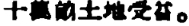十萬畝土地受益。
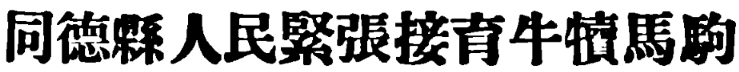同德縣人民緊張接育牛犢馬駒
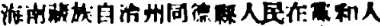海南藏族自治州同德縣人民在黨和人
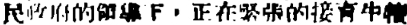民政府的領導下，正在緊張的接育牛犢
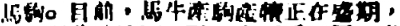馬駒。目前，馬牛產駒產犢正在盛期，
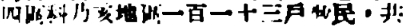四區科乃亥地區一百一十三戶牧民，共
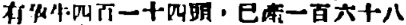有孕牛四百一十四頭，已產一百六十八
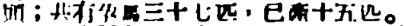頭；共有孕馬三十七匹，已產十五匹。
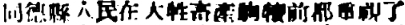同德縣人民在大牲畜產駒犢前都重視了
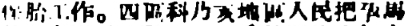保胎工作。四區科乃亥地區人民把孕馬
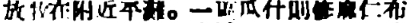放牧在附近平灘。一區瓜什則修麻仁布
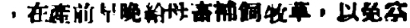，在產前早晚給母畜補饲牧草，以免空
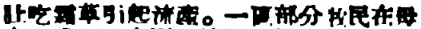肚吃霜草引起流產。一區部分牧民在母
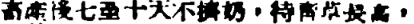畜產後七至十天不擠奶，待青草長高，
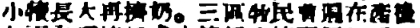小犢長大再擠奶。三區牧民普遍在產後
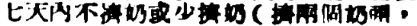七天內不擠奶或少擠奶（擠兩個奶頭，
